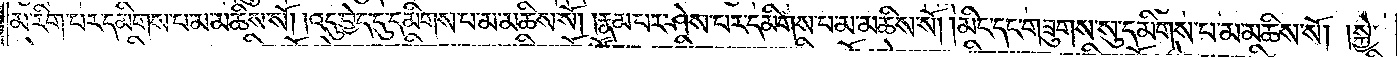མ་རིག་པར་དམིགས་པ་མ་མཆིས་སོ། །འདུ་བྱེད་དུ་དམིགས་པ་མ་མཆིས་སོ། །རྣམ་པར་ཤེས་པར་དམིགས་པ་མ་མཆིས་སོ། །མིང་དང་གཟུགས་སུ་དམིགས་པ་མ་མཆིས་སོ། །སྐྱེ་
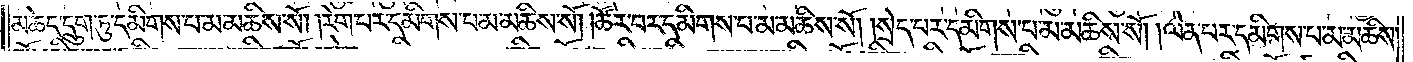མཆེད་དྲུག་ཏུ་དམིགས་པ་མ་མཆིས་སོ། །རེག་པར་དམིགས་པ་མ་མཆིས་སོ། །ཚོར་བར་དམིགས་པ་མ་མཆིས་སོ། །སྲེད་པར་དམིགས་པ་མ་མཆིས་སོ། །ལེན་པར་དམིགས་པ་མ་མཆིས་
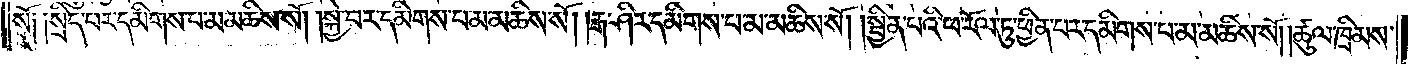སོ། །སྲིད་པར་དམིགས་པ་མ་མཆིས་སོ། །སྐྱེ་བར་དམིགས་པ་མ་མཆིས་སོ། །རྒ་ཤིར་དམིགས་པ་མ་མཆིས་སོ། །སྦྱིན་པའི་ཕ་རོལ་ཏུ་ཕྱིན་པར་དམིགས་པ་མ་མཆིས་སོ། །ཚུལ་ཁྲིམས་
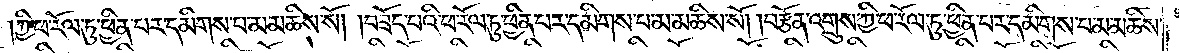ཀྱི་ཕ་རོལ་ཏུ་ཕྱིན་པར་དམིགས་པ་མ་མཆིས་སོ། །བཟོད་པའི་ཕ་རོལ་ཏུ་ཕྱིན་པར་དམིགས་པ་མ་མཆིས་སོ། །བརྩོན་འགྲུས་ཀྱི་ཕ་རོལ་ཏུ་ཕྱིན་བར་དམིགས་པ་མ་མཆིས་
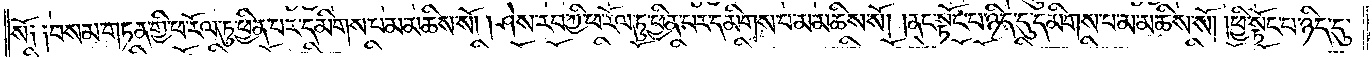སོ། །བསམ་གཏན་གྱི་ཕ་རོལ་ཏུ་ཕྱིན་པར་དམིགས་པ་མ་མཆིས་སོ། །ཤེས་རབ་ཀྱི་ཕ་རོལ་ཏུ་ཕྱིན་པར་དམིགས་པ་མ་མཆིས་སོ། །ནང་སྟོང་པ་ཉིད་དུ་དམིགས་པ་མ་མཆིས་སོ། །ཕྱི་སྟོང་པ་ཉིད་དུ་
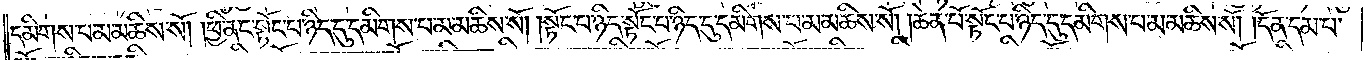དམིགས་པ་མ་མཆིས་སོ། །ཕྱི་ནང་སྟོང་པ་ཉིད་དུ་དམིགས་པ་མ་མཆིས་སོ། །སྟོང་པ་ཉིད་སྟོང་པ་ཉིད་དུ་དམིགས་པ་མ་མཆིས་སོ། །ཆེན་པོ་སྟོང་པ་ཉིད་དུ་དམིགས་པ་མ་མཆིས་སོ། །དོན་དམ་པ་
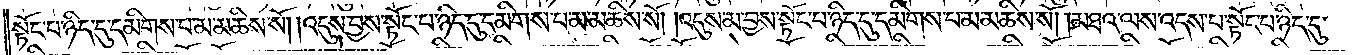སྟོང་པ་ཉིད་དུ་དམིགས་པ་མ་མཆིས་སོ། །འདུས་བྱས་སྟོང་པ་ཉིད་དུ་དམིགས་པ་མ་མཆིས་སོ། །འདུས་མ་བྱས་སྟོང་པ་ཉིད་དུ་དམིགས་པ་མ་མཆིས་སོ། །མཐའ་ལས་འདས་པ་སྟོང་པ་ཉིད་དུ་
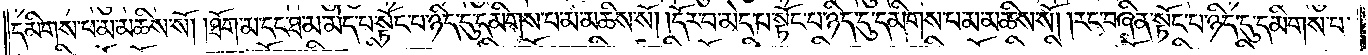དམིགས་པ་མ་མཆིས་སོ། །ཐོག་མ་དང་ཐ་མ་མེད་པ་སྟོང་པ་ཉིད་དུ་དམིགས་པ་མ་མཆིས་སོ། །དོར་བ་མེད་པ་སྟོང་པ་ཉིད་དུ་དམིགས་པ་མ་མཆིས་སོ། །རང་བཞིན་སྟོང་པ་ཉིད་དུ་དམིགས་པ་
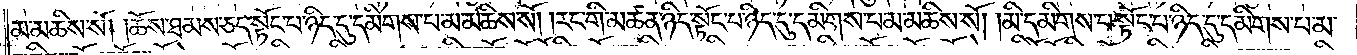མ་མཆིས་སོ། །ཆོས་ཐམས་ཅད་སྟོང་པ་ཉིད་དུ་དམིགས་པ་མ་མཆིས་སོ། །རང་གི་མཚན་ཉིད་སྟོང་པ་ཉིད་དུ་དམིགས་པ་མ་མཆིས་སོ། །མི་དམིགས་པ་སྟོང་པ་ཉིད་དུ་དམིགས་པ་མ་
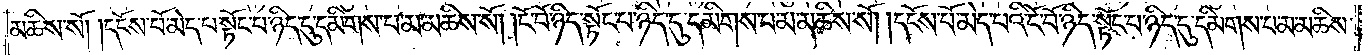མཆིས་སོ། །དངོས་པོ་མེད་པ་སྟོང་པ་ཉིད་དུ་དམིགས་པ་མ་མཆིས་སོ། །ངོ་བོ་ཉིད་སྟོང་པ་ཉིད་དུ་དམིགས་པ་མ་མཆིས་སོ། །དངོས་པོ་མེད་པའི་ངོ་བོ་ཉིད་སྟོང་པ་ཉིད་དུ་དམིགས་པ་མ་མཆིས་
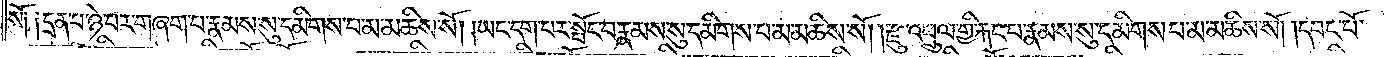སོ༑ ༑དྲན་པ་ཉེ་བར་གཞག་པ་རྣམས་སུ་དམིགས་པ་མ་མཆིས་སོ། །ཡང་དག་པར་སྤོང་བ་རྣམས་སུ་དམིགས་པ་མ་མཆིས་སོ། །རྫུ་འཕྲུལ་གྱི་རྐང་པ་རྣམས་སུ་དམིགས་པ་མ་མཆིས་སོ། །དབང་པོ་
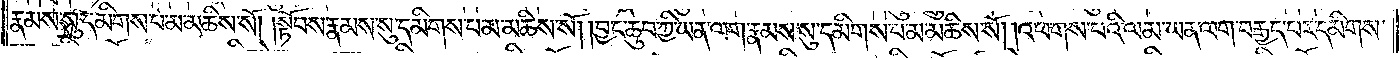རྣམས་སུ་དམིགས་པ་མ་མཆིས་སོ། །སྟོབས་རྣམས་སུ་དམིགས་པ་མ་མཆིས་སོ། །བྱང་ཆུབ་ཀྱི་ཡན་ལག་རྣམས་སུ་དམིགས་པ་མ་མཆིས་སོ། །འཕགས་པའི་ལམ་ཡན་ལག་བརྒྱད་པར་དམིགས་
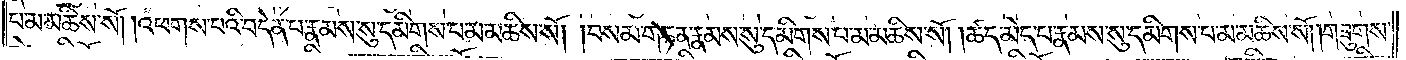པ་མ་མཆིས་སོ། །འཕགས་པའི་བདེན་པ་རྣམས་སུ་དམིགས་པ་མ་མཆིས་སོ། །བསམ་གཏན་རྣམས་སུ་དམིགས་པ་མ་མཆིས་སོ། །ཚད་མེད་པ་རྣམས་སུ་དམིགས་པ་མ་མཆིས་སོ། །གཟུགས་
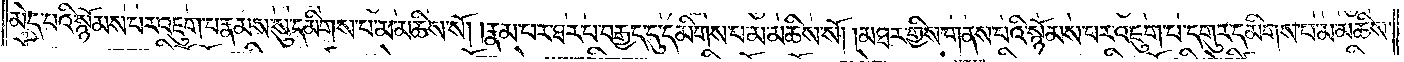མེད་པའི་སྙོམས་པར་འཇུག་པ་རྣམས་སུ་དམིགས་པ་མ་མཆིས་སོ། །རྣམ་པར་ཐར་པ་བརྒྱད་དུ་དམིགས་པ་མ་མཆིས་སོ། །མཐར་གྱིས་གནས་བའི་སྙོམས་པར་འཇུག་པ་དགུར་དམིགས་པ་མ་མཆིས་
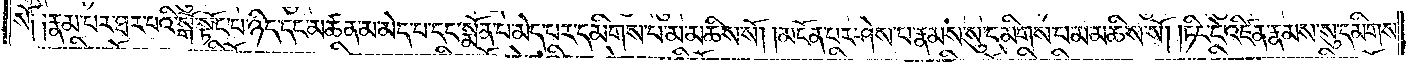སོ༑ ༑རྣམ་པར་ཐར་པའི་སྒོ་སྟོང་པ་ཉིད་དང་མཚན་མ་མེད་པ་དང་སྨོན་པ་མེད་པར་དམིགས་པ་མ་མཆིས་སོ། །མངོན་པར་ཤེས་པ་རྣམས་སུ་དམིགས་པ་མ་མཆིས་སོ། །ཏིང་ངེ་འཛིན་རྣམས་སུ་དམིགས་
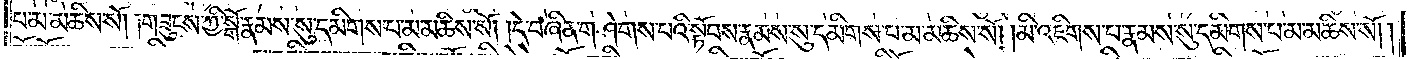པ་མ་མཆིས་སོ། །གཟུངས་ཀྱི་སྒོ་རྣམས་སུ་དམིགས་པ་མ་མཆིས་སོ། །དེ་བཞིན་གཤེགས་པའི་སྟོབས་རྣམས་སུ་དམིགས་པ་མ་མཆིས་སོ། །མི་འཇིགས་པ་རྣམས་སུ་དམིགས་པ་མ་མཆིས་སོ། །
